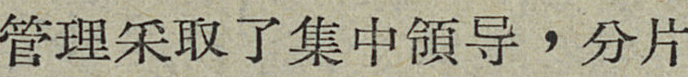管理采取了集中領导，分片
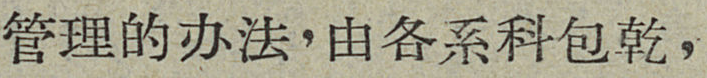管理的办法，由各系科包幹，
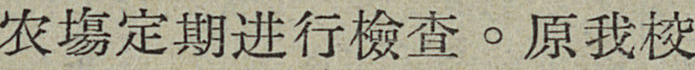农塲定期进行檢查。原我校
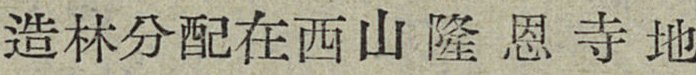造林分配在西山隆恩寺地
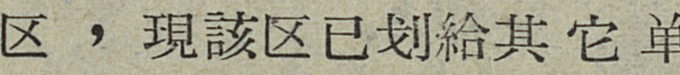区，現該区已划給其他单
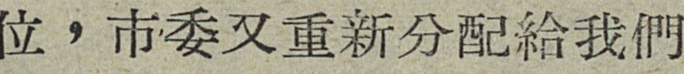位，市委又重新分配給我們
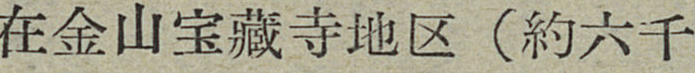在金山宝藏寺地区（約六千
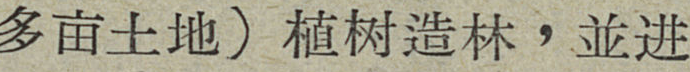多亩土地）植树造林，並进
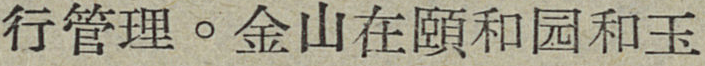行管理。金山在頤和园和玉
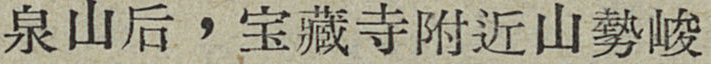泉山后，宝藏寺附近山勢峻
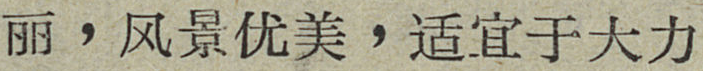丽，风景优美，适宜于大力
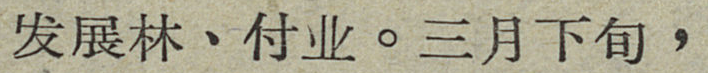发展林、付业。三月下旬，
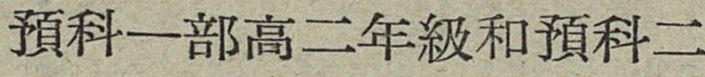預科一部高二年級和預科二
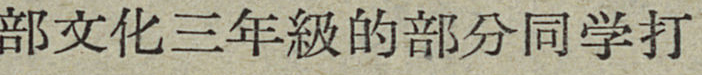部文化三年級的部分同学打
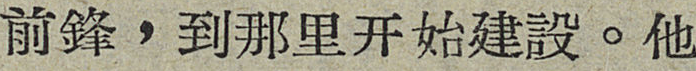前鋒，到那里开始建設。他
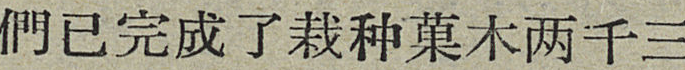們已完成了栽种菓木两千三
